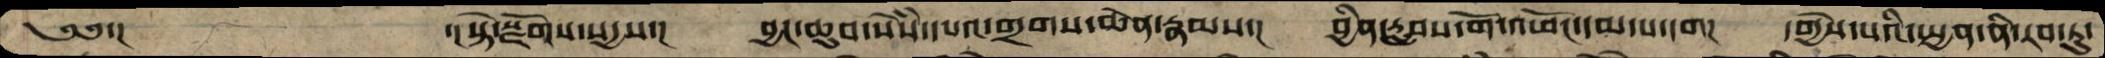༄༅་།               ་།སྟེ་སྫོགས་སདྱས་།   བྱང་ཆུབ་སེཾས་དཔའ་གྲགས་ཆེན་རྣམས་།   བྱིན་རླབས་གོ་འཕོང་དམ་པ་དག།  དགྱེས་པའི་སྤྱན་ནི་རབ་ཏུ་
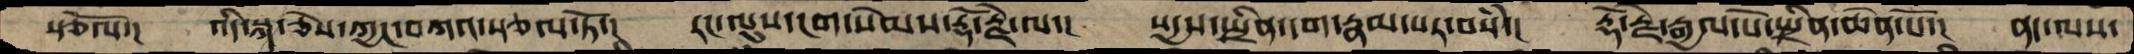སྩོལ་།   འདི་སྐད་ཅེས་ཀྱང་བཀའ་སྩལ་ཏོ་།   རང་ལུས་ངག་སེམས་རྡོ་རྗེ་ལ་།   སདྱས་སྤྲིན་དག་རྣམ་པར་བསཾ་།   རྡོ་རྗེ་རྒྱལ་པོ་སྤྲིན་ཆེན་པོ་།  ནད་ལས་
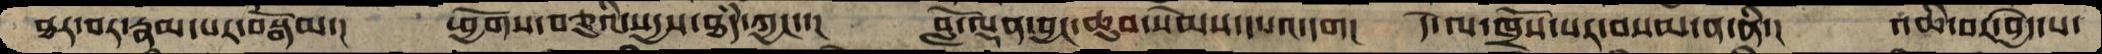ཐར་བར་རྣམ་པར་བསྒོམ་།  ཕྱོགས་བཅུའི་སདྱས་ཐཾད་ཀྱང་་།  བློ་ལྡན་བྱང་ཆུབ་སེམས་དཔའ་དག།   དེ་ལ་ཁྲོས་པར་བསམ་ན་ནི་།    འཆི་བར་བྱེད་པ་
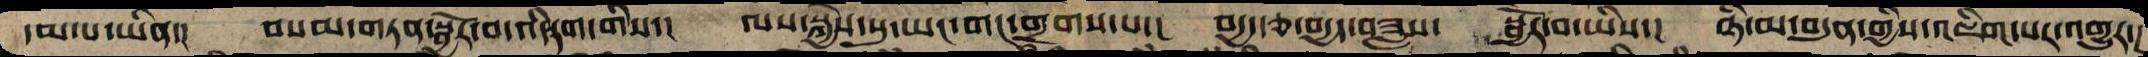དམ་པ་ཡིན་།  བསམ་གཏན་སྦྱོར་བ་འདིདག་གིས་།  ལས་སྐྱེས་སུ་ཡང་གང་གྲགས་པ་།  བདྱད་རྩ་བདྱད་བཟླས་   སྦྱོར་བ་ཡིས་།   ཉི་མ་བདུན་གྱིས་འཇིག་པར་འགྱུར་།
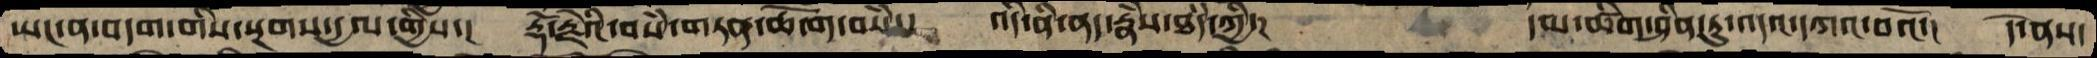ཡང་ན་བདག་གིས་སྔགས་དྱལ་གྱིས་།  རྡོ་རྗེའི་བསཾ་གཏན་ཆོ་ག་བསཾ་།   འདི་ནི་ནད་རྣཾས་ཐཾད་ཀྱི་།    དམ་ཚིག་ཤིན་ཏུ་འདའ་དཀའ་བའོ་།  དེ་ནས་
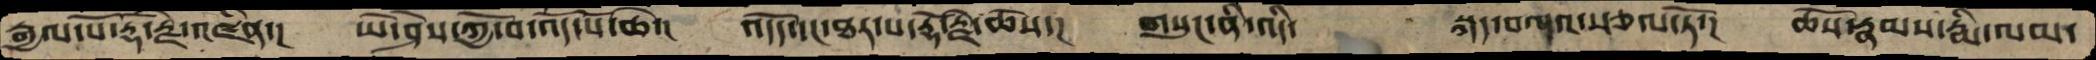རྒྱལ་པོ་རྡོ་རྗེ་འཛིན་།   ཡེ་ཤེས་ཀྱོ་བ་འོད་པོ་ཆེ་།  འདོད་དང་ཐར་པ་རྡོ་རྗེ་ཆོས་།  གསུང་ནི་འདི་   སྐད་བཀའ་སྩལ་ཏོ་།  ཆོས་རྣམས་རྨི་ལམ་
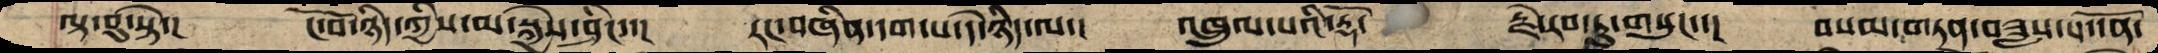ལྟ་བུ་སྟེ་།      ངོ་བོ་ཉིད་ཀྱིས་མ་སྐྱེས་ཤིང་་།   རང་བཞིན་དག་པ་དེ་ཉདི་ལ་།  འཁྲུལ་པའི་རྡོ་    རྗེ་རབ་ཏུ་གསུང་་།    བསམ་གཏན་བཟླས་པ་དོན་
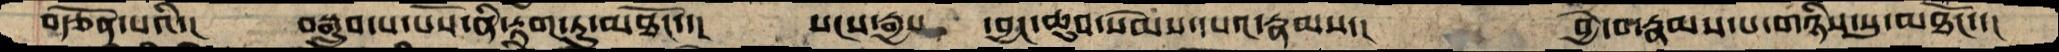བརྩོན་པའི་།    བསྒྲུབ་པ་པོས་ནི་རྟག་ཏུ་མཐོང་་།   སངས་རྒྱས་  བྱང་ཆུབ་སེམས་དཔའ་རྣམས་།    བྱེ་བ་རྣམས་པ་གཉིས་སུ་མཐོང་་།
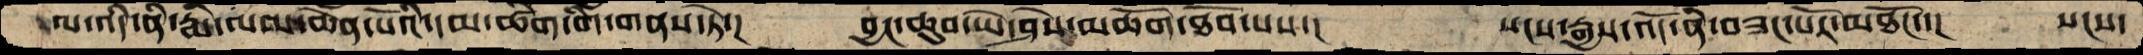ལ་འདི་ནི་རྨི་ལམ་ཆེན་པོའི་དམ་ཚིག་གི་གནས་ཏེ་།    བྱང་ཆུབ་ཡེ་ཤེས་མཆོག་ཐོབ་པས་།      སངས་རྒྱས་འོད་ནི་བཟང་པོར་མཐོང་་།  སངས་
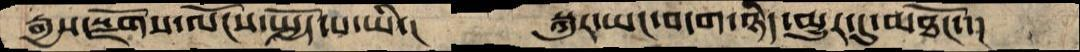རྒྱས་སྫོགས་ལོངས་སྤྱོད་པ་ཡི་།      སྐུར་ཡང་བདག་ཉིད་མྱུར་དུ་མཐོང་་།
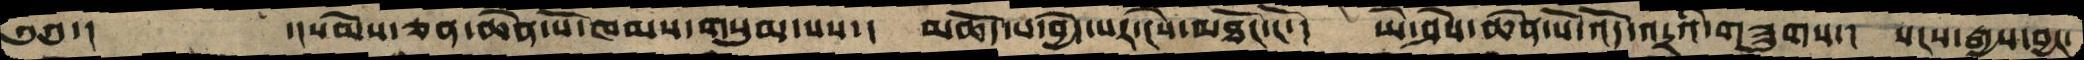༄༅་།   ་།སེམས་ཅན་ཆེན་པོ་ཁམས་གསུམ་པས་།  མཆོད་པ་བྱེད་པར་ངེས་མཐོང་ངོ་་།   ཡེ་ཤེས་ཆེན་པོ་འོད་འདྲའི་གཟུགས་།   སངས་རྒྱས་བྱང་
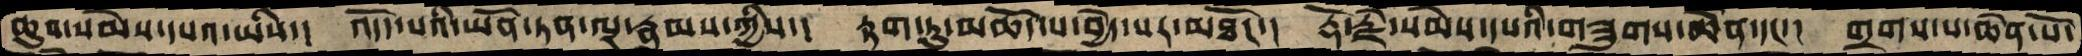ཆུབ་སེམས་དཔའ་ཡིས་།  འདོད་པའི་ཡོན་ཏན་ལྔ་རྣམས་ཀྱིས་།  རྟག་ཏུ་མཆོད་པ་བྱེད་པར་མཐོང་།  རྡོ་རྗེ་སེམས་དཔའི་གཟུགས་ཆེན་དང་།  གྲགས་པ་ཆེན་པོ་
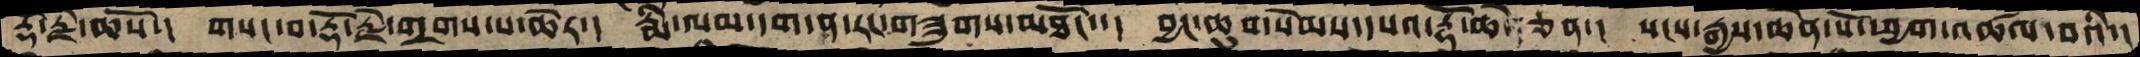རྡོ་རྗེ་ཆོས་།   གསང་བ་རྡོ་རྗེ་གྲགས་པ་ཆེར་།   རྨི་ལམ་དག་ན་རང་གཟུགས་མཐོང་་།  བྱང་ཆུབ་སེམས་དཔའ་རྡོ་ཆེ་ ཅན་།   སངས་རྒྱས་ཆེན་པོ་ཕྱག་འཚལ་བའི་།
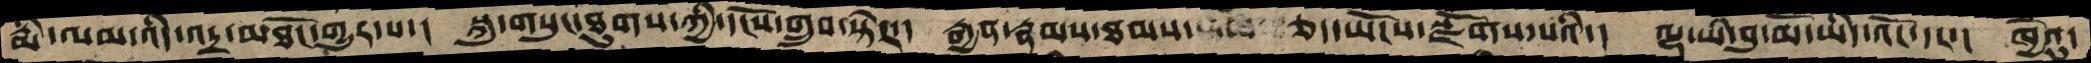རྨི་ལམ་འདི་འདྲ་མཐོང་གྱུར་པ་།  སྐུ་གསུང་ཐུགས་ཀྱི་དངོས་གྲུབ་སྟེར་།  རྒྱན་རྣམས་ཐམས་   ཅད་ཡོངས་སྫོགས་པའི་།  ལྷ་ཡི་བུ་མོ་ཡིད་འོང་དང་།  ཁྱེའུ་
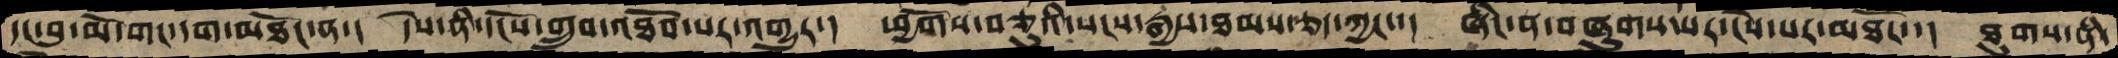དང་བུ་མོ་གང་དག་མཐོང་ན་།  དེས་ནི་དངོས་གྲུབ་འཐོབ་པར་འགྱུར་།  ཕྱོགས་བཅུའི་སངས་རྒྱས་ཐམས་ཅད་ཀྱང་་།  ཞིང་ན་བཞུགས་པར་ངེས་པར་མཐོང་་།  ཐུགས་ནི་
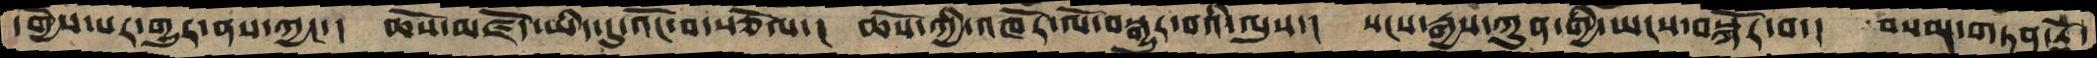དགྱེས་པར་གྱུར་ནས་ཀྱང་།  ཆོས་མཛོད་ཡིད་དུ་འོང་བ་སྩོལ་།  ཆོས་ཀྱི་འཁོར་ལོ་བསྒྱུར་བའི་ལུས་།  སངས་རྒྱས་ཀུན་གྱི་ཡངས་བསྐོར་བ་།  བསམ་གཏན་རྡོ་
